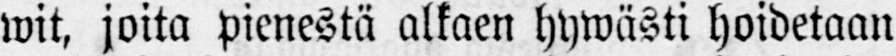wit, joita pienestä alkaen hywästi hoidetaan
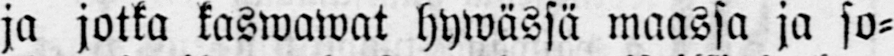ja jotka kaswawat hywässä maassa ja so-
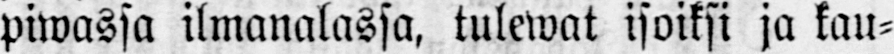piwassa ilmanalassa, tulewat isoiksi ja kau-
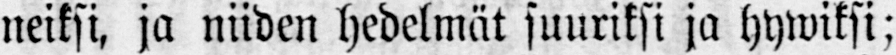neiksi, ja niiden hedelmät suuriksi ja hywiksi;
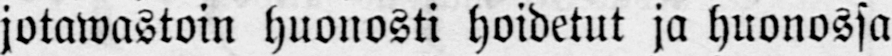jotawastoin huonosti hoidetut ja huonossa
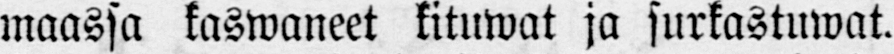maassa kaswaneet kituwat ja surkastuwat.
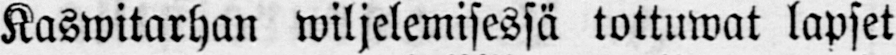Kaswitarhan wiljelemisessä tottuwat lapset
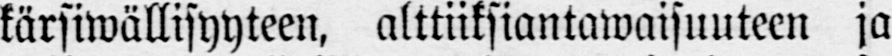kärsiwällisyyteen, alttiiksiantawaisuuteen ja
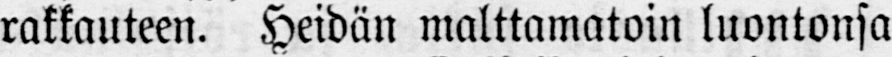rakkauteen. Heidän malttamatoin luontonsa
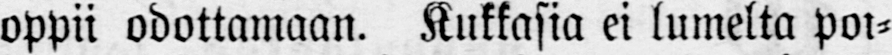oppii odottamaan. Kukkasia ei lumelta poi-
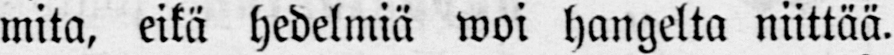mita, eikä hedelmiä woi hangella niittää.
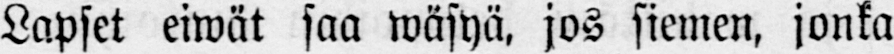Lapset eiwät saa wäsyä. jos siemen, jonka
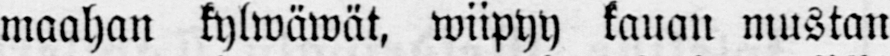maahan kylwäwät, wiipyy kauan mustan
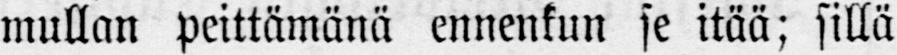mullan peittämällä ennenkun se itää; sillä
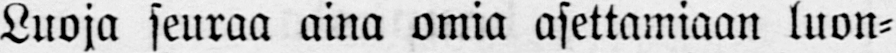Luoja seuraa aina omia asettamiaan luon-
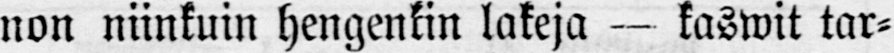non niinkuin hengenkin lakeja — kaswit tar-
